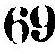69
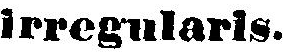irregularis.
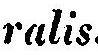ralis.
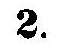2.
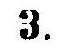3.
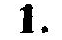1.
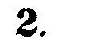2.
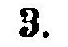3.
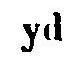yd
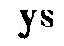ys
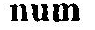num
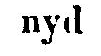nyd
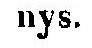nys.
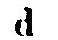d
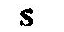s
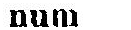num
